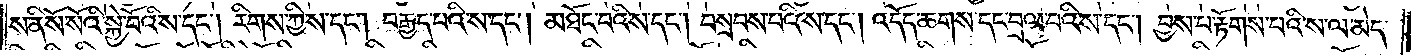ས་ནི་སོ་སོའི་སྐྱེ་བོའི་ས་དང༌། རིགས་ཀྱི་ས་དང༌། བརྒྱད་པའི་ས་དང༌། མཐོང་བའི་ས་དང༌། བསྲབས་པའི་ས་དང༌། འདོད་ཆགས་དང་བྲལ་བའི་ས་དང༌། བྱས་པ་རྟོགས་པའི་ས་ལ་མེད་
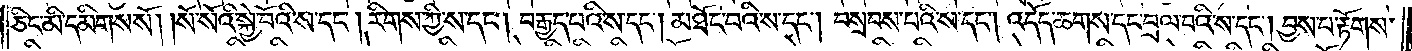ཅིང་མི་དམིགས་སོ། །སོ་སོའི་སྐྱེ་བོའི་ས་དང༌། རིགས་ཀྱི་ས་དང༌། བརྒྱད་པའི་ས་དང༌། མཐོང་བའི་ས་དང༌། བསྲབས་པའི་ས་དང༌། འདོད་ཆགས་དང་བྲལ་བའི་ས་དང༌། བྱས་པ་རྟོགས་
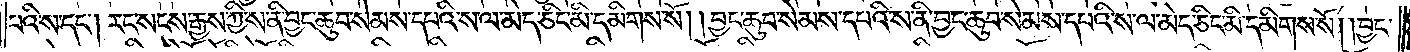པའི་ས་དང༌། རང་སངས་རྒྱས་ཀྱི་ས་ནི་བྱང་ཆུབ་སེམས་དཔའི་ས་ལ་མེད་ཅིང་མི་དམིགས་སོ། །བྱང་ཆུབ་སེམས་དཔའི་ས་ནི་བྱང་ཆུབ་སེམས་དཔའ་ས་ལ་མེད་ཅིང་མི་དམིགས་སོ། །བྱང་
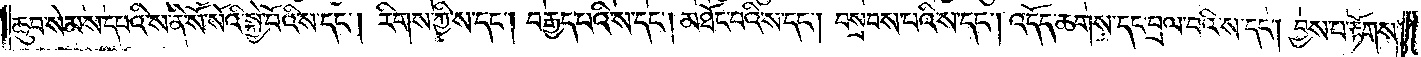ཆུབ་སེམས་དཔའི་ས་ནི་སོ་སོའི་སྐྱེ་བོའི་ས་དང༌། རིགས་ཀྱི་ས་དང༌། བརྒྱད་པའི་ས་དང༌། མཐོང་བའི་ས་དང༌། བསྲབས་པའི་ས་དང༌། འདོད་ཆགས་དང་བྲལ་བའི་ས་དང༌། བྱས་པ་རྟོགས་
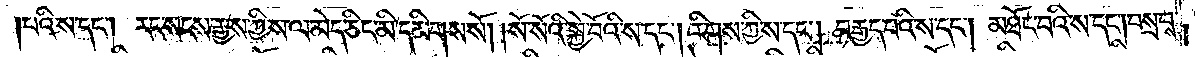པའི་ས་དང༌། རང་སངས་རྒྱས་ཀྱི་ས་ལ་མེད་ཅིང་མི་དམིགས་སོ། །སོ་སོའི་སྐྱེ་བོའི་ས་དང༌། རིགས་ཀྱི་ས་དང༌། བརྒྱད་པའི་ས་དང༌། མཐོང་བའི་ས་དང༌། བསྲབས་
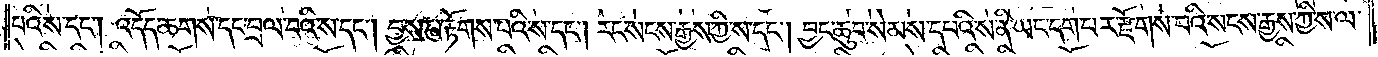པའི་ས་དང༌། འདོད་ཆགས་དང་བྲལ་བའི་ས་དང༌། བྱས་པ་རྟོགས་པའི་ས་དང༌། རང་སངས་རྒྱས་ཀྱི་ས་དང༌། བྱང་ཆུབ་སེམས་དཔའི་ས་ནི་ཡང་དག་པར་རྫོགས་པའི་སངས་རྒྱས་ཀྱི་ས་ལ་
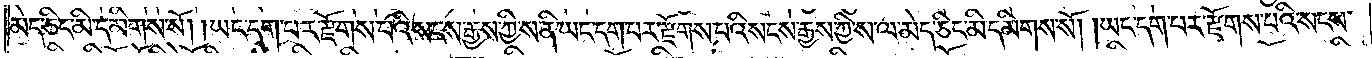མེད་ཅིང་མི་དམིགས་སོ། །ཡང་དག་པར་རྫོགས་པའི་སངས་རྒྱས་ཀྱི་ས་ནི་ཡང་དག་པར་རྫོགས་པའི་སངས་རྒྱས་ཀྱི་ས་ལ་མེད་ཅིང་མི་དམིགས་སོ། །ཡང་དག་པར་རྫོགས་པའི་སངས་
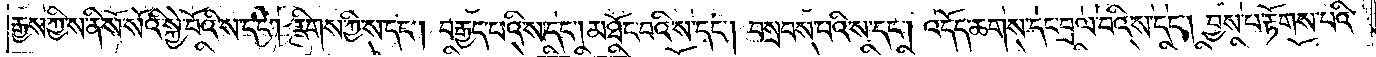རྒྱས་ཀྱི་ས་ནི་སོ་སོའི་སྐྱེ་བོའི་ས་དང༌། རིགས་ཀྱི་ས་དང་བརྒྱད་པའི་ས་དང༌། མཐོང་བའི་ས་དང༌། བསྲབས་པའི་ས་དང༌། འདོད་ཆགས་དང་བྲལ་བའི་ས་དང༌། བྱས་པ་རྟོགས་པའི་
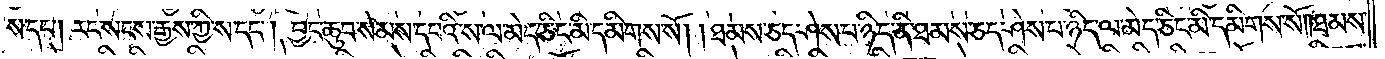ས་དང༌། རང་སངས་རྒྱས་ཀྱི་ས་དང༌། བྱང་ཆུབ་སེམས་དཔའི་ས་ལ་མེད་ཅིང་མི་དམིགས་སོ། །ཐམས་ཅད་ཤེས་པ་ཉིད་ནི་ཐམས་ཅད་ཤེས་པ་ཉིད་ལ་མེད་ཅིང་མི་དམིགས་སོ། །ཐམས་
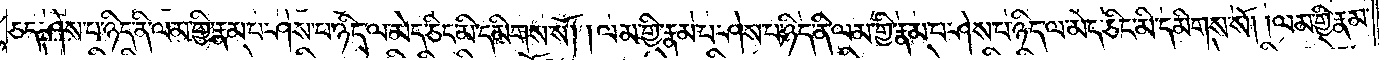ཅད་ཤེས་པ་ཉིད་ནི་ལམ་གྱི་རྣམ་པ་ཤེས་པ་ཉིད་ལ་མེད་ཅིང་མི་དམིགས་སོ། །ལམ་གྱི་རྣམ་པ་ཤེས་པ་ཉིད་ནི་ལམ་གྱི་རྣམ་པ་ཤེས་པ་ཉིད་ལ་མེད་ཅིང་མི་དམིགས་སོ། །ལམ་གྱི་རྣམ་
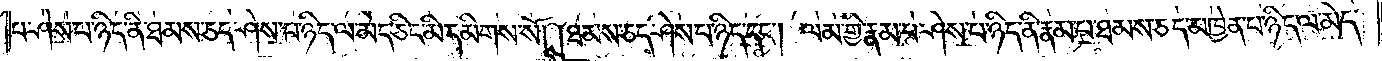པ་ཤེས་པ་ཉིད་ནི་ཐམས་ཅད་ཤེས་པ་ཉིད་ལ་མེད་ཅིང་མི་དམིགས་སོ། །ཐམས་ཅད་ཤེས་པ་ཉིད་དང༌། ལམ་གྱི་རྣམ་པ་ཤེས་པ་ཉིད་ནི་རྣམ་པ་ཐམས་ཅད་མཁྱེན་པ་ཉིད་ལ་མེད་
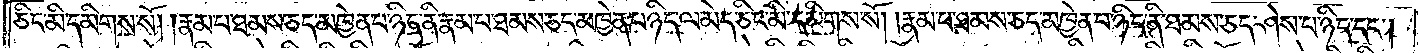ཅིང་མི་དམིགས་སོ། །རྣམ་པ་ཐམས་ཅད་མཁྱེན་པ་ཉིད་ནི་རྣམ་པ་ཐམས་ཅད་མཁྱེན་པ་ཉིད་ལ་མེད་ཅིང་མི་དམིགས་སོ། །རྣམ་པ་ཐམས་ཅད་མཁྱེན་པ་ཉིད་ནི་ཐམས་ཅད་ཤེས་པ་ཉིད་དང༌།
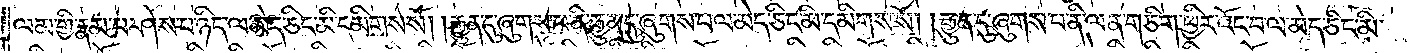ལམ་གྱི་རྣམ་པ་ཤེས་པ་ཉིད་ལ་མེད་ཅིང་མི་དམིགས་སོ། །རྒྱུན་དུ་ཞུགས་པ་ནི་རྒྱུན་དུ་ཞུགས་པ་ལ་མེད་ཅིང་མི་དམིགས་སོ། །རྒྱུན་དུ་ཞུགས་པ་ནི་ལན་ཅིག་ཕྱིར་འོང་བ་ལ་མེད་ཅིང་མི་
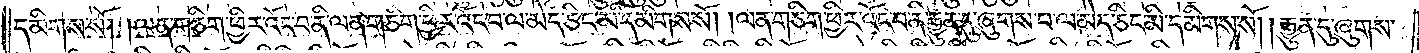དམིགས་སོ། །ལན་ཅིག་ཕྱིར་འོང་བ་ནི་ལན་ཅིག་ཕྱིར་འོང་བ་ལ་མེད་ཅིང་མི་དམིགས་སོ། །ལན་ཅིག་ཕྱིར་འོང་བ་ནི་རྒྱུན་དུ་ཞུགས་པ་ལ་མེད་ཅིང་མི་དམིགས་སོ། །རྒྱུན་དུ་ཞུགས་
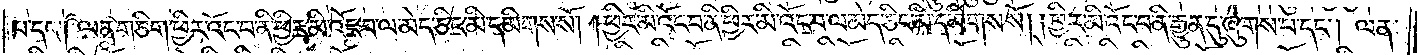པ་དང༌། ལན་ཅིག་ཕྱིར་འོང་བ་ནི་ཕྱིར་མི་འོང་བ་ལ་མེད་ཅིང་མི་དམིགས་སོ། །ཕྱིར་མི་འོང་བ་ནི་ཕྱིར་མི་འོང་བ་ལ་མེད་ཅིང་མི་དམིགས་སོ། །ཕྱིར་མི་འོང་བ་ནི་རྒྱུན་དུ་ཞུགས་པ་དང༌། ལན་
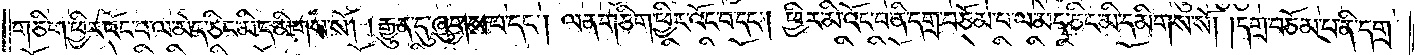གཅིག་ཕྱིར་འོང་བ་ལ་མེད་ཅིང་མི་དམིགས་སོ། །རྒྱུན་དུ་ཞུགས་པ་དང༌། ལན་ཅིག་ཕྱིར་འོང་བ་དང༌། ཕྱིར་མི་འོང་བ་ནི་དགྲ་བཅོམ་པ་ལ་མེད་ཅིང་མི་དམིགས་སོ། །དགྲ་བཅོམ་པ་ནི་དགྲ་
